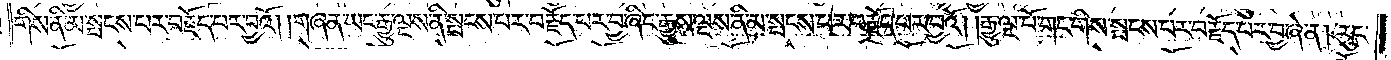གིས་ནི་མ་སྤངས་པར་བརྗོད་པར་བྱའོ། །གཞན་ཡང་རྒྱུ་ལྔས་ནི་སྤངས་པར་བརྗོད་པར་བྱ་ཞིང་རྒྱུས་ལྔས་ནི་མ་སྤངས་པར་བརྗོད་པར་བྱའོ། །རྒྱུ་ལྔ་པོ་གང་གིས་སྤངས་པར་བརྗོད་པར་བྱ་ཞེ་ན། རུང་
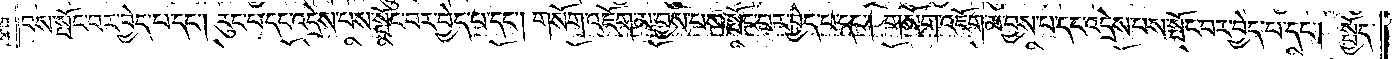བས་སྤོང་བར་བྱེད་པ་དང༌། རུང་བ་དང་འདྲེས་པས་སྤོང་བར་བྱེད་པ་དང༌། གསོག་འཇོག་མ་བྱས་པས་སྤོང་བར་བྱེད་པ་དང༌། གསོག་འཇོག་མ་བྱས་པ་དང་འདྲེས་པས་སྤོང་བར་བྱེད་པ་དང༌། སྤྱོད་
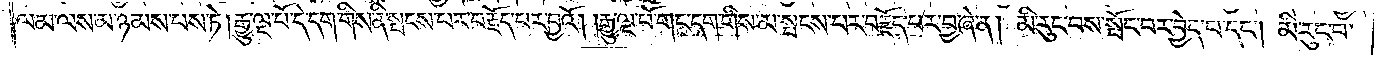ལམ་ལས་མ་ཉམས་པས་ཏེ། རྒྱུ་ལྔ་པོ་དེ་དག་གིས་ནི་སྤངས་པར་བརྗོད་པར་བྱའོ། །རྒྱུ་ལྔ་པོ་གང་དག་གིས་མ་སྤངས་པར་བརྗོད་པར་བྱ་ཞེ་ན། མི་རུང་བས་སྤོང་བར་བྱེད་པ་དང༌། མི་རུང་བ་
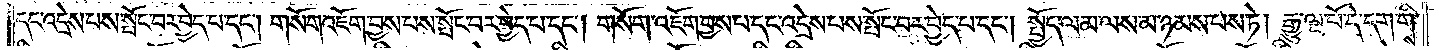དང་འདྲེས་པས་སྤོང་བར་བྱེད་པ་དང༌། གསོག་འཇོག་བྱས་པས་སྤོང་བར་བྱེད་པ་དང༌། གསོག་འཇོག་བྱས་པ་དང་འདྲེས་པས་སྤོང་བར་བྱེད་པ་དང༌། སྤྱོད་ལམ་ལས་མ་ཉམས་པས་ཏེ། རྒྱུ་ལྔ་པོ་དེ་དག་གིས་
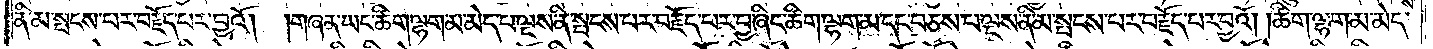ནི་མ་སྤངས་པར་བརྗོད་པར་བྱའོ། །གཞན་ཡང་ཚིག་ལྷག་མ་མེད་པ་ལྔས་ནི་སྤངས་པར་བརྗོད་པར་བྱ་ཞིང་ཚིག་ལྷག་མ་དང་བཅས་པ་ལྔས་ནི་མ་སྤངས་པར་བརྗོད་པར་བྱའོ། །ཚིག་ལྷག་མ་མེད་
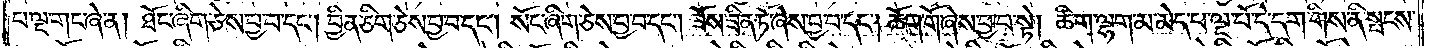པ་ལྔ་གང་ཞེ་ན། ཐོང་ཞིག་ཅེས་བྱ་བ་དང༌། བྱིན་ཅིག་ཅེས་བྱ་བ་དང༌། སོང་ཞིག་ཅེས་བྱ་བ་དང༌། ཟོས་ཟིན་ཏོ་ཞེས་བྱ་བ་དང༌། ཆོག་གོ་ཞེས་བྱ་བ་སྟེ། ཚིག་ལྷག་མ་མེད་པ་ལྔ་པོ་དེ་དག་གིས་ནི་སྤངས་
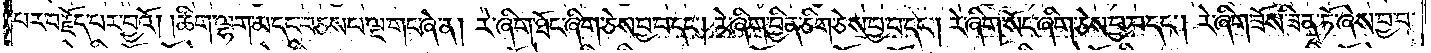པར་བརྗོད་པར་བྱའོ། །ཚིག་ལྷག་མ་དང་བཅས་པ་ལྔ་གང་ཞེ་ན། རེ་ཞིག་ཐོང་ཞིག་ཅེས་བྱ་བ་དང༌། རེ་ཞིག་བྱིན་ཅིག་ཅེས་བྱ་བ་དང༌། རེ་ཞིག་སོང་ཞིག་ཅེས་བྱ་བ་དང༌། རེ་ཞིག་ཟོས་ཟིན་ཏོ་ཞེས་བྱ་བ་
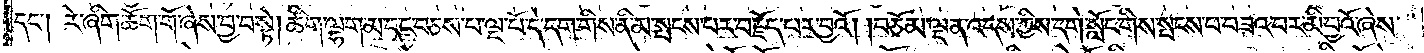དང༌། རེ་ཞིག་ཆོག་གོ་ཞེས་བྱ་བ་སྟེ། ཚིག་ལྷག་མ་དང་བཅས་པ་ལྔ་པོ་དེ་དག་གིས་ནི་མ་སྤངས་པར་བརྗོད་པར་བྱའོ། །བཅོམ་ལྡན་འདས་ཀྱིས་དགེ་སློང་གིས་སྤངས་པ་བཟའ་བར་མི་བྱའོ་ཞེས་
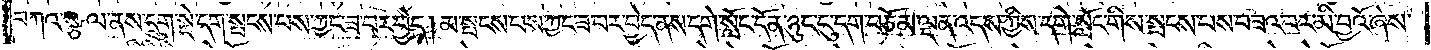བཀའ་སྩལ་ནས་དྲུག་སྡེ་དག་སྤངས་པས་ཀྱང་ཟ་བར་བྱེད། མ་སྤངས་པས་ཀྱང་ཟ་བར་བྱེད་ནས་དགེ་སློང་དོན་ཉུང་ངུ་དག་བཅོམ་ལྡན་འདས་ཀྱིས་དགེ་སློང་གིས་སྤངས་པས་བཟའ་བར་མི་བྱའོ་ཞེས་
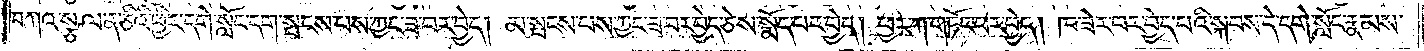བཀའ་སྩལ་ན་ཅིའི་ཕྱིར་དགེ་སློང་དག་སྤངས་པས་ཀྱང་ཟ་བར་བྱེད། མ་སྤངས་པས་ཀྱང་ཟ་བར་བྱེད་ཅེས་སྨོད་པར་བྱེད། ཕྱར་ཀ་གཏོང་བར་བྱེད། ཁ་ཟེར་བར་བྱེད་པའི་སྐབས་དེ་དགེ་སློང་རྣམས་
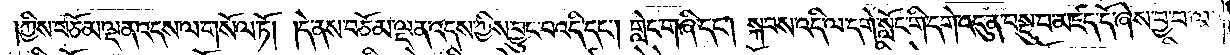ཀྱིས་བཅོམ་ལྡན་འདས་ལ་གསོལ་ཏོ། །དེ་ནས་བཅོམ་ལྡན་འདས་ཀྱིས་བྱུང་བ་འདི་དང༌། གླེང་གཞི་དང༌། སྐབས་འདི་ལ་དགེ་སློང་གི་དགེ་འདུན་བསྡུ་བ་མཛད་དོ་ཞེས་བྱ་བ་ལ་
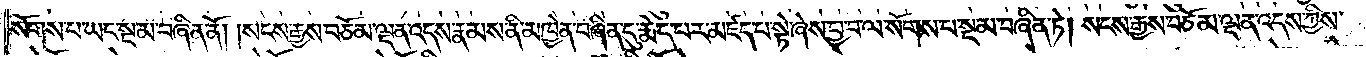སོགས་པ་ཡང་སྔ་མ་བཞིན་ནོ། །སངས་རྒྱས་བཅོམ་ལྡན་འདས་རྣམས་ནི་མཁྱེན་བཞིན་དུ་རྨེད་པར་མཛད་པ་སྟེ་ཞེས་བྱ་བ་ལ་སོགས་པ་སྔ་མ་བཞིན་ཏེ། སངས་རྒྱས་བཅོམ་ལྡན་འདས་ཀྱིས་
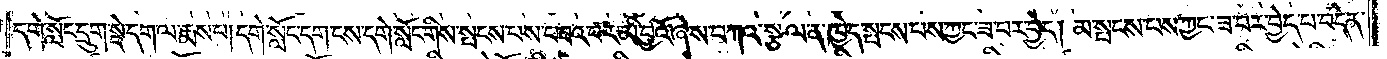དགེ་སློང་དྲུག་སྡེ་དག་ལ་རྨས་པ། དགེ་སློང་དག་ངས་དགེ་སློང་གིས་སྤངས་པས་བཟའ་བར་མི་བྱའོ་ཞེས་བཀའ་སྩལ་ན་ཁྱེད་སྤངས་པས་ཀྱང་ཟ་བར་བྱེད། མ་སྤངས་པས་ཀྱང་ཟ་བར་བྱེད་པ་བདེན་
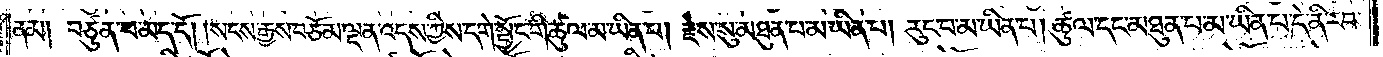ནམ། བཙུན་པ་མད་དོ། །སངས་རྒྱས་བཅོམ་ལྡན་འདས་ཀྱིས་དགེ་སྦྱོང་གི་ཚུལ་མ་ཡིན་པ། རྗེས་སུ་མཐུན་པ་མ་ཡིན་པ། རུང་བ་མ་ཡིན་པ། ཚུལ་དང་མཐུན་པ་མ་ཡིན་པ་དེ་ནི་རབ་
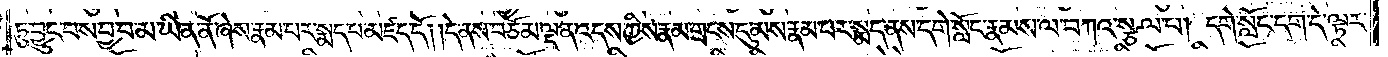ཏུ་བྱུང་བས་བྱ་བ་མ་ཡིན་ནོ་ཞེས་རྣམ་པར་སྨད་པ་མཛད་དོ། །དེ་ནས་བཅོམ་ལྡན་འདས་ཀྱིས་རྣམ་གྲངས་དུ་མས་རྣམ་པར་སྨད་ནས་དགེ་སློང་རྣམས་ལ་བཀའ་སྩལ་པ། དགེ་སློང་དག་དེ་ལྟར་
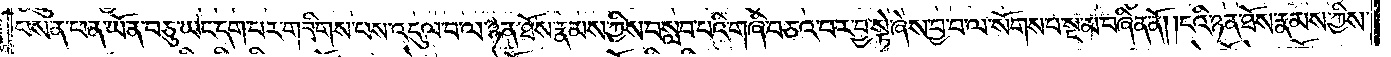བས་ན་ཕན་ཡོན་བཅུ་ཡང་དག་པར་གཟིགས་པས་འདུལ་བ་ལ་ཉན་ཐོས་རྣམས་ཀྱིས་བསླབ་པའི་གཞི་བཅའ་བར་བྱ་སྟེ་ཞེས་བྱ་བ་ལ་སོགས་པ་སྔ་མ་བཞིན་ནོ། །ངའི་ཉན་ཐོས་རྣམས་ཀྱིས་
